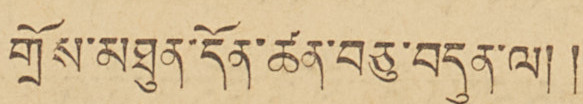གྲོས་མཐུན་དོན་ཚན་བཅུ་བདུན་ལ།།
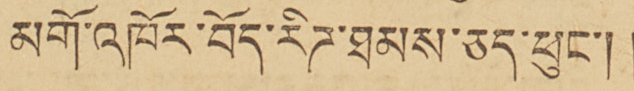མགོ་འཁོར་བོད་རིཊ་ཐམས་ཅད་ཕུང་།།
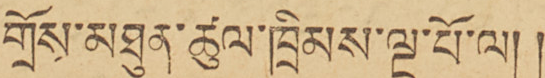གྲོས་མཐུན་ཚུལ་ཁྲིམས་ལྔ་པོ་ལ།།
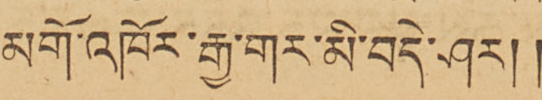མགོ་འཁོར་རྒྱ་གར་མི་བདེ་ཤར།།
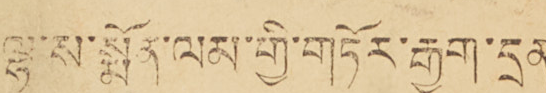ལྷ་ས་སྨོན་ལམ་གྱི་གཏོར་རྒྱག་དྲན་
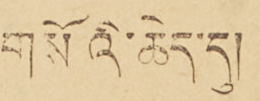གསོའི་ཆེད་དུ།།
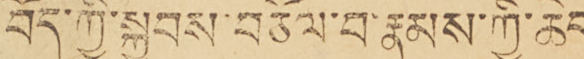བོད་ཀྱི་སྐྱབས་བཅོལ་བ་རྣམས་ཀྱི་ཆེད་
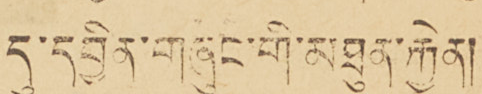དུ་དབྱིན་གཞུང་གི་མཐུན་རྐྱེན།
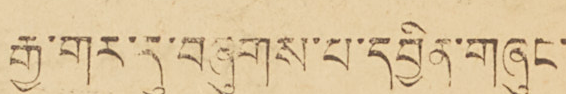རྒྱ་གར་དུ་བཞུགས་པ་དབྱིན་གཞུང་
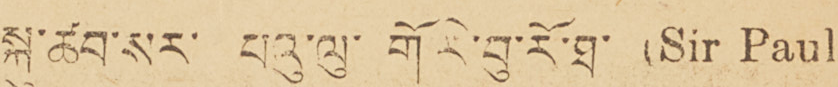སྐུ་ཚབ་སར་པའུ་ལུ་གོ་རེ་བུ་རོ་ཐ་(Sir Paul
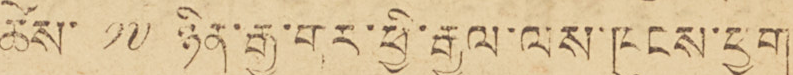ཚེས་ ༡༧ ཉིན་རྒྱ་གར་ཕྱི་རྒྱལ་ལས་ཁུངས་ཕྱག་
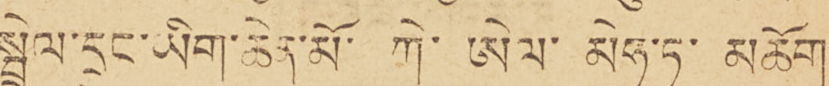སྦྲེལ་དྲུང་ཡིག་ཆེན་མོ་ ཀེ་ ཨེལ་ མེཧ་ཏཱ་ མཆོག་
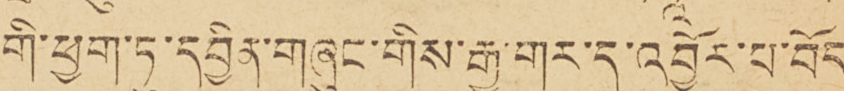གི་ཕྱག་ཏུ་དབྱིན་གཞུང་གིས་རྒྱ་གར་དུ་འབྱོར་པ་བོད་
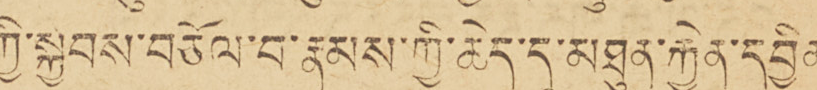ཀྱི་སྐྱབས་བཅོལ་བ་རྣམས་ཀྱི་ཆེད་དུ་མཐུན་རྐྱེན་དབྱིན་
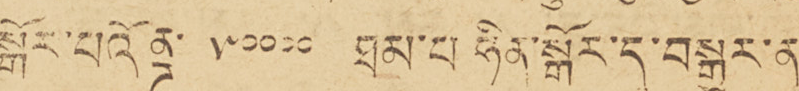སྒོར་པའོནྜ་ ༥༠༠༠༠ ཐམ་པ ཧིན་སྒོར་དུ་བསྒྱུར་ན་
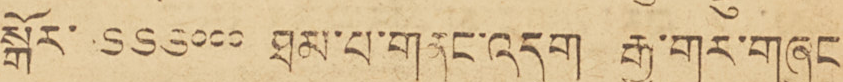སྒོར་ ༦༦༦༠༠༠ ཐམ་པ་གནང་འདུག རྒྱ་གར་གཞུང་
